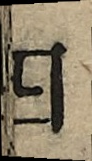四
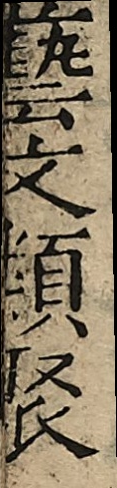藝文類聚
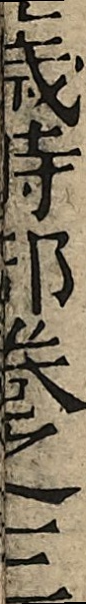歲時卷之三
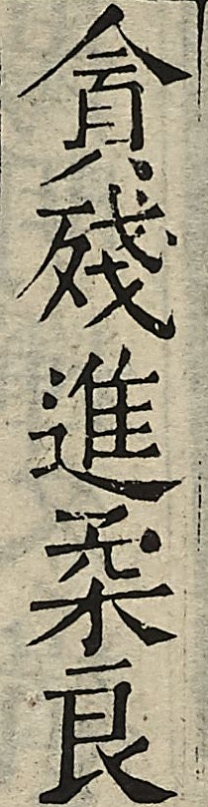貪殘進柔良
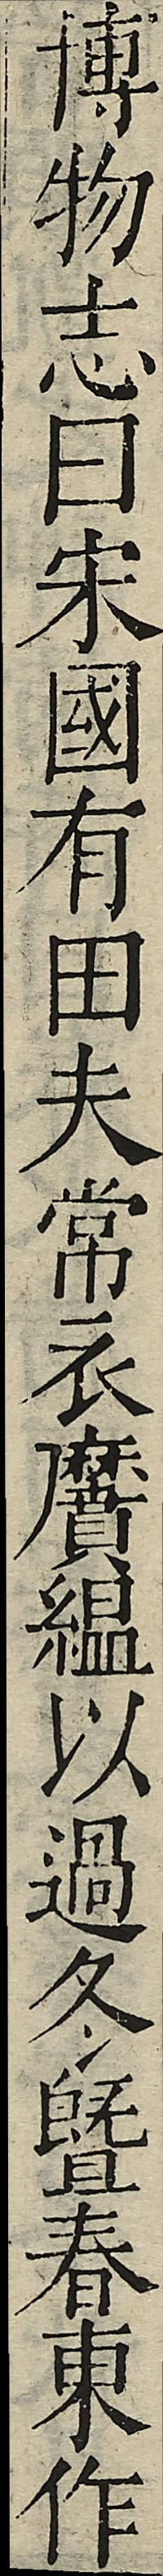博物志曰宋國有田夫常衣黂縕以過冬暨春東作
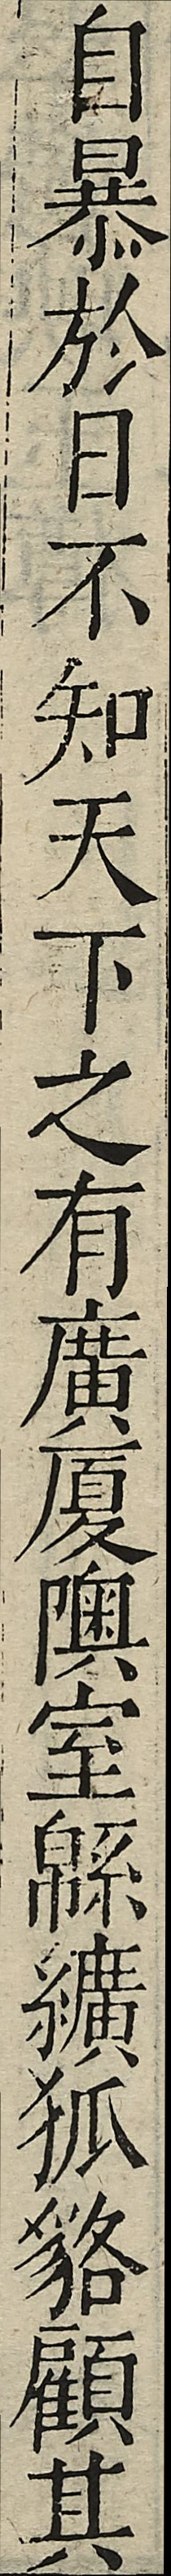自暴於日不知天下之有廣廈隩室緜纊狐貉顧其
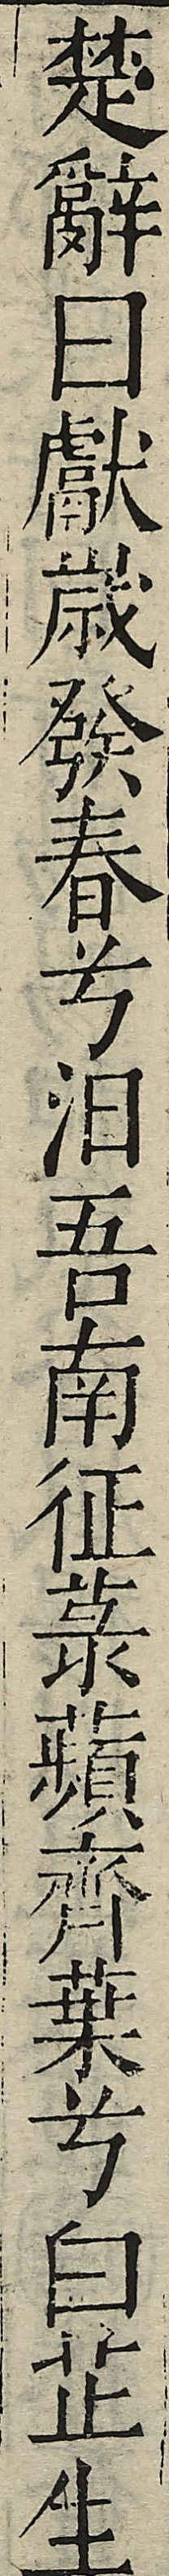楚辭曰獻歲發春兮汨吾南征菉蘋齊葉兮白芷生
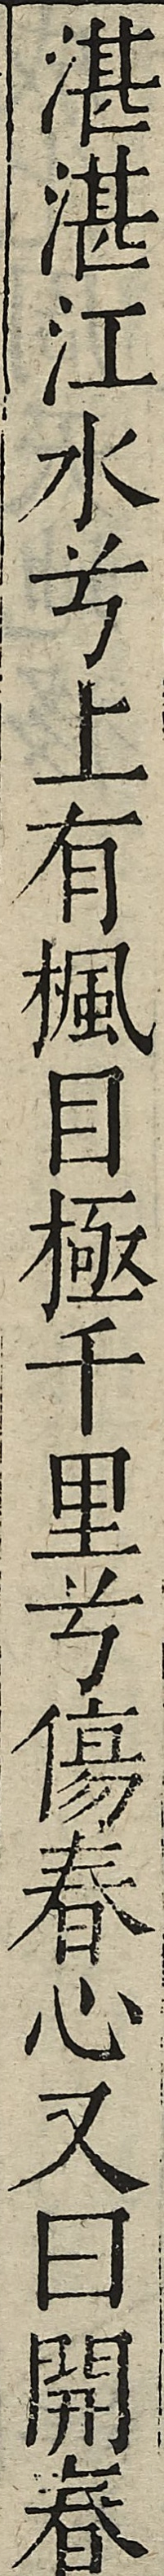湛湛江水兮上有楓目極千里兮傷春心又曰開春
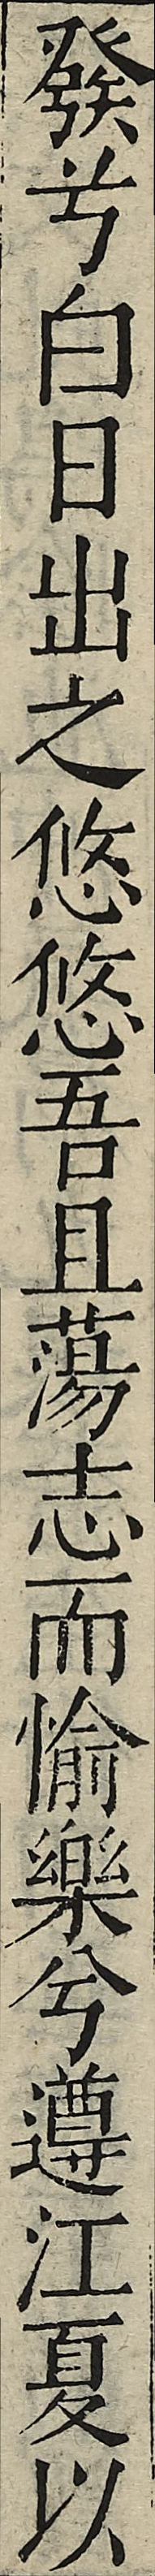發兮白日出之悠悠吾且蕩志而愉樂兮遵江夏以
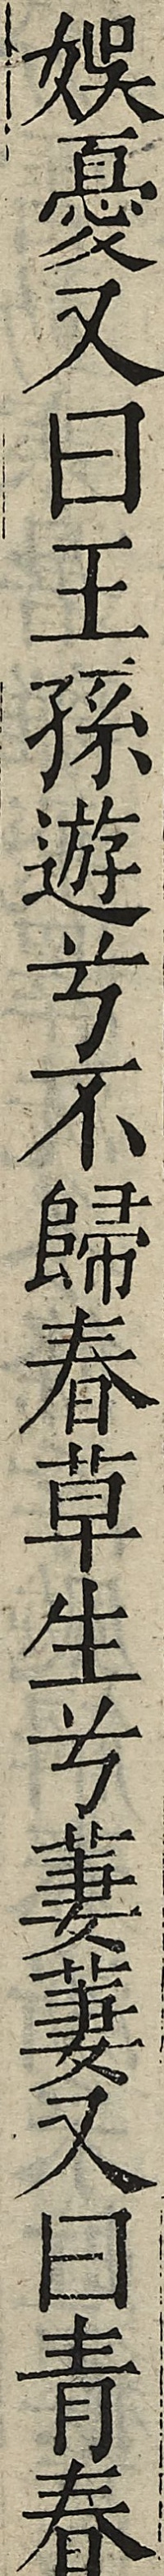娛憂又曰王孫遊兮不歸春草生兮萋萋又曰青春
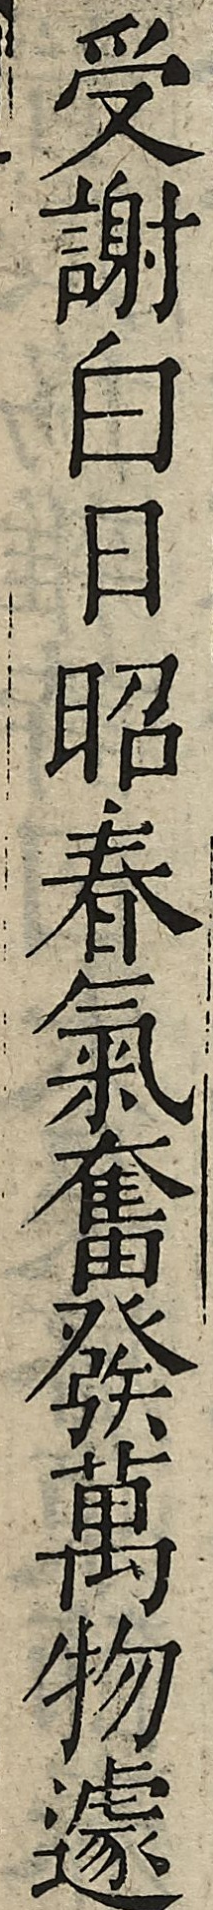受謝白日昭春氣奮發萬物遽
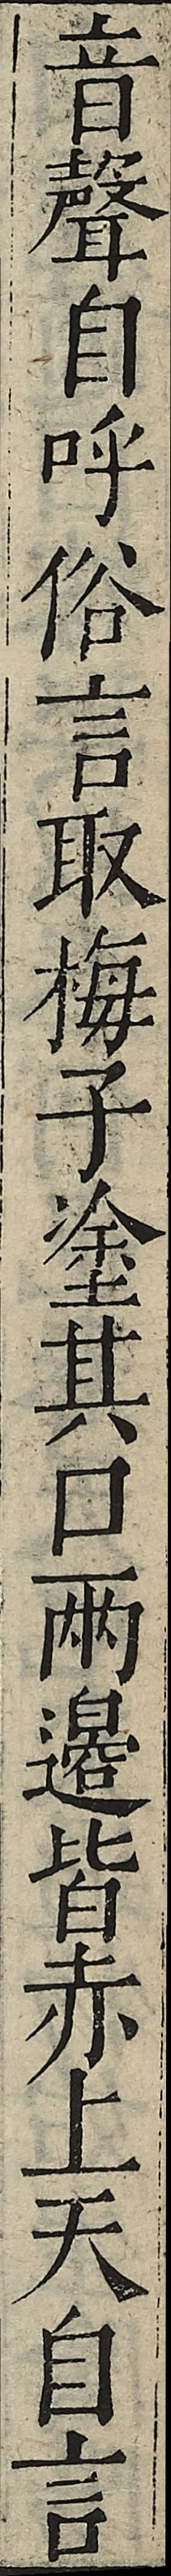音聲自呼俗言取梅子塗其口兩邊皆赤上天自言
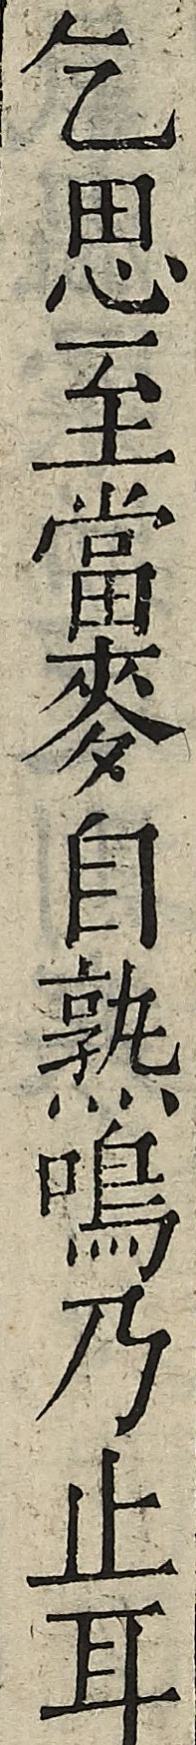乞思至當麥自熟鳴乃止耳
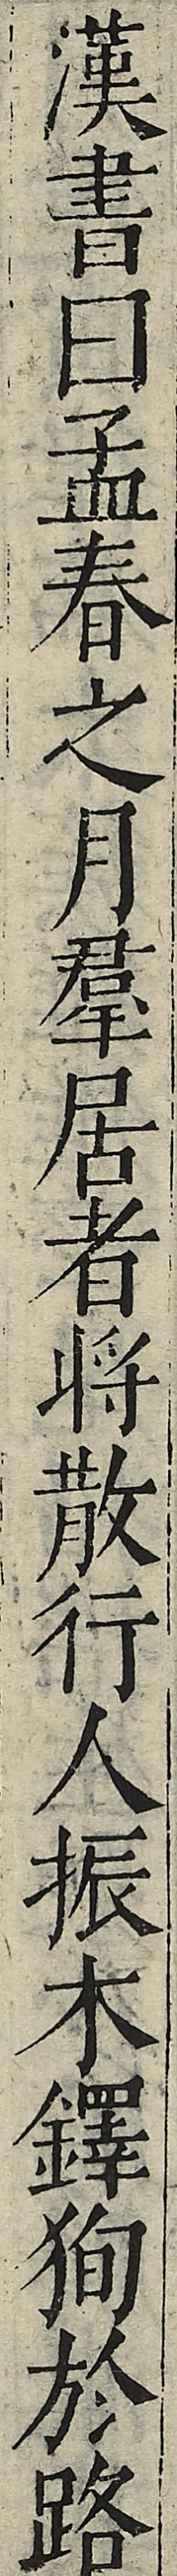漢書曰孟春之月群居者將散行人振木鐸徇於路
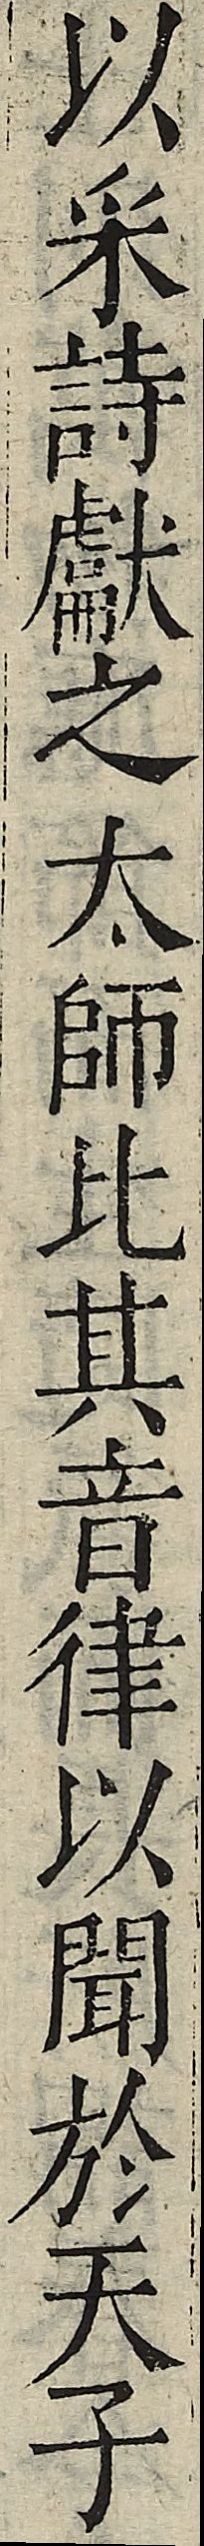以采詩獻之太師比其音律以聞於天子
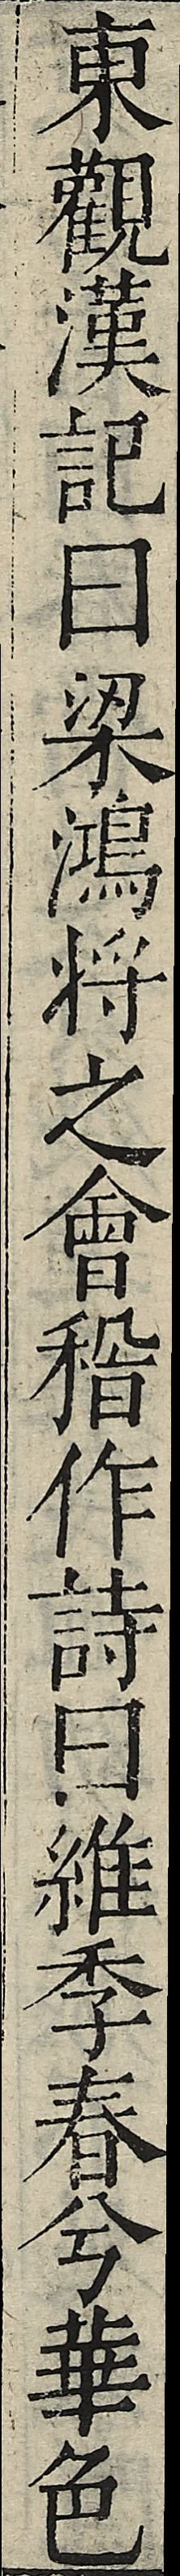東觀漢記曰梁鴻將之會稽作詩曰維季春兮華色
